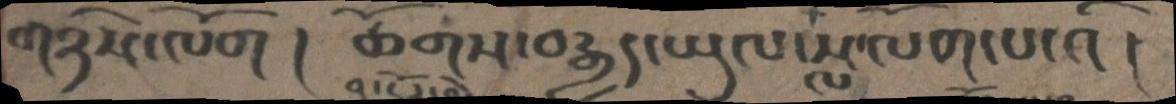གཉིས་ལོག ། ཚོགས་བརྒྱད་ཡུལ་སླ་ལོག་པ་འི།
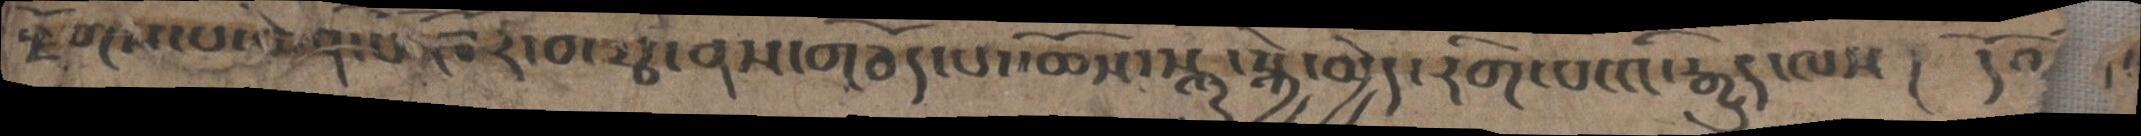རྫོགས་པ་ཆེན་པོ་ཁོར་བ་རྩ་ནས་གཅོད་པ་ཆོས་སྐུ་སྐྱེ་མྱེད་རིག་པ་འི་རྒྱུད་ལས ། དོའ
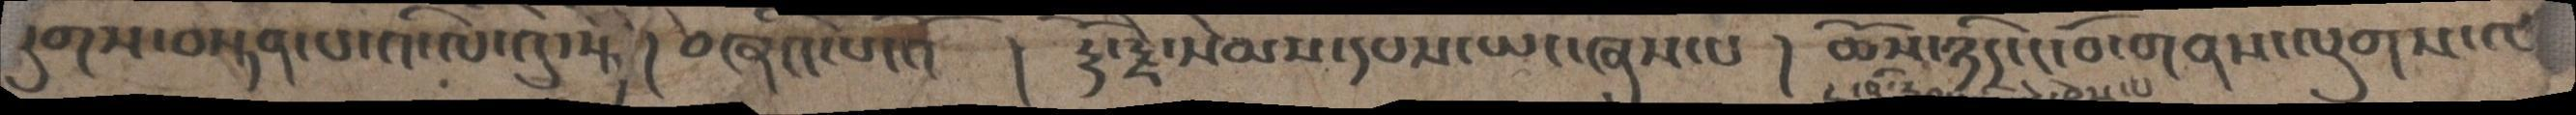ལུགས་བསྟན་པ་འི་ལེ་འུ་སྟེ། བཞིའ་པ་འོ  ། རྡོ་རྗེ་སེམས་དཔས་ཡང་ཞུས་པ ། ཆོས་ཉིད་ངོ་བོ་གནས་ལུགས་ལ
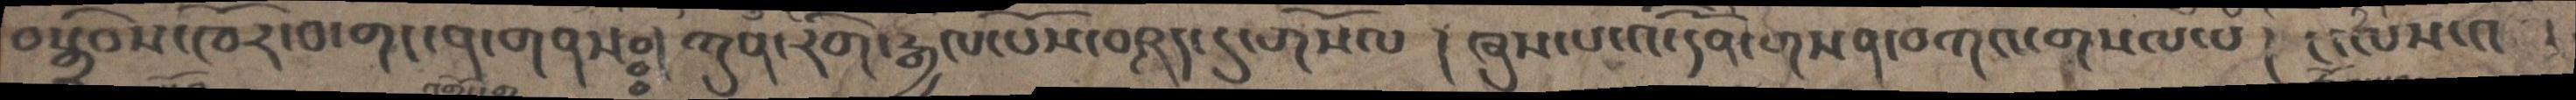བསྒྲིབས་ཁོར་བ་གང་ན་གནསཿ  །ཀུན་རིག་རྒྱལ་པོས་བཤད་དུ་གསོལ །ཞུས་པ་འི་དོན་གསན་བཀའ་གསལ་པ །ང་ལས་འ
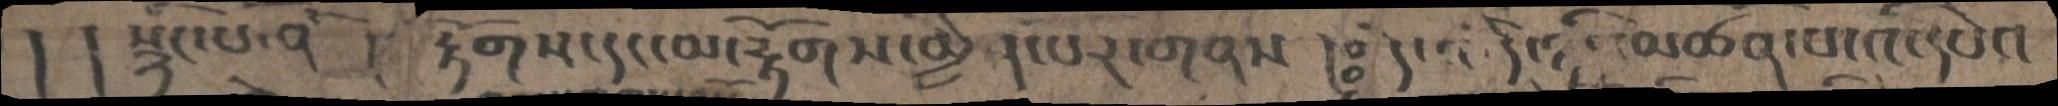། །སྙིང་པོ་ནི །རྟོགས་དང་མ་རྟོགས་མྱིན་པར་གནས །ཿ །དེ་འི་དེ་ཉིད་མཚན་པ་འི་དཔེའ་
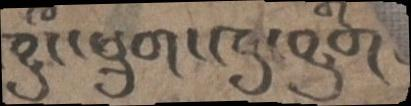ཁྱུང་ཕྲུག་ཁུ་བྱུག
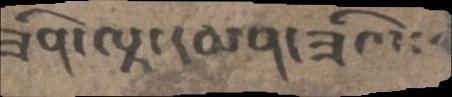ཟིན་ལྟ་དམན་ཟིལ་
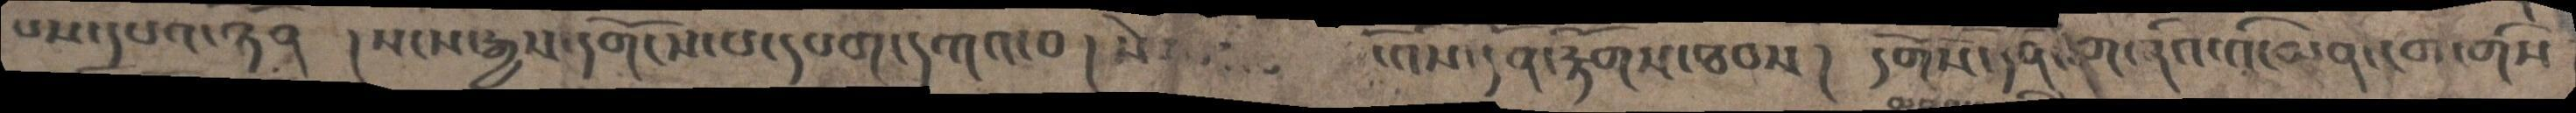པས་དཔའ་ཉན། སངས་རྒྱས་དགོངས་པ་དཔག་དཀའ་བ ། སེ   འོས་དོན་རྟོགས་ཐབས ། དགོས་དོན་གཞིའ་འི་མན་ངག་གིས
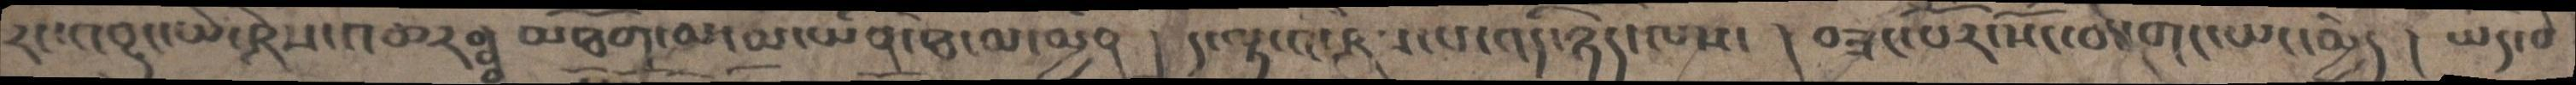རང་འབྱུང་ཡེ་ཤེས་འཆརཿ  །  མཐོག་མ་མ་ཡིན་ཐ་མ་མྱིན ། ད་ལྟ་འི་ཤེས་པ་འདི་ཉིད་ལས་ ། བཟང་པོར་སོང་བས་གང་ཡང་མྱེད ། ཡད་བ
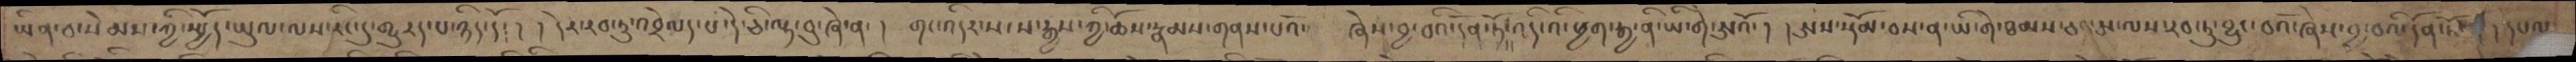ཡིན་བ་སེམས་ཀྱི་སྤྱོད་ཡུལ་ལས་རིང་དུ་གྱུརད་པ་ཉིད་དོ། །དེར་རབ་ཏུ་འབྲེལད་པ་དེ་ཅི་ལྟ་བུ་ཞེ་ན་། གང་འདིར་སངས་རྒྱས་ཀྱི་རྣམས་གནས་པའོ་ ཞེས་བྱ་བའི་དོན་ཏོ་འདི་འི་ཕྱག་རྒྱ་ནི་ཡི་གེ་ཨའོ་། ཨས་སྡོམ་བས་ན་ཡི་གེ་ཐམས་ཅད་ཨ་ལས་རབ་ཏུ་བྱུང་བའོ་ཞེས་བྱ་བའི་དོན་ཏོ་། དཔལ
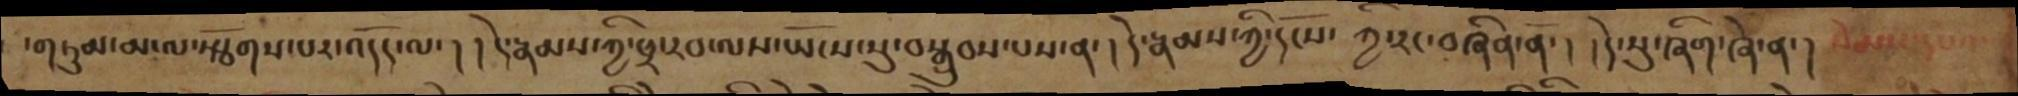་གཏུམ་མ་ལ་སྩོགས་པར་འདོད་ལ་། །དེ་རྣམས་ཀྱི་ཕྲ་རབ་ལས་ཡོངས་སུ་བསྒྲུབས་པས་ན་ །དེ་རྣམས་ཀྱི་དངོས་ཀྱི་རང་བཞིན་ནོ་ ། །དེ་སུ་ཞིག་ཞེ་ན་ །སེམས་དཔའ་
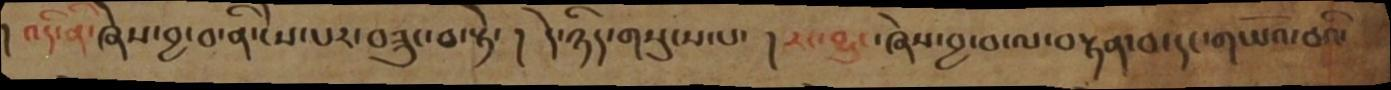། འདི་ནི་ཞེས་བྱ་བ་ནི་ངེས་པར་བཟུང་བ་སྟེ་ ། དེ་ཉིད་གསུངས་པ་ །རང་བྱུང་ཞེས་བྱ་བ་ལ་བརྟན་པ་དང་གཡོའ་བའི་
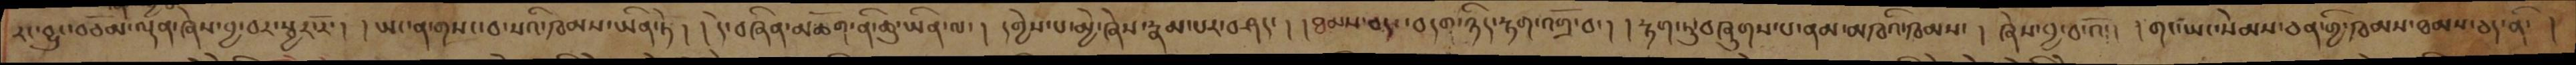རང་བྱུང་བཅོམ་ལྡན་ཞེས་བར་སྦྱར་རོ་། ཡང་ན་གསང་བ་སའི་ཁམས་ཡིན་ཏེ ། དེ་བཞིན་མཆོག་ནི་ཆུ་ཡིན་ལ་ །དགྱེས་པ་མྱེ་ཞེས་རྣམ་པར་བཤད་ ། ཐམས་ཅད་བདག་ཉིད་རྟག་འགྲོ་བ་། །རྟག་ཏུ་བཞུགས་པ་ནམ་མཁའི་ཁམས་ །ཞེས་བྱ་བ་འོ་། །གང་ཡང་སེམས་ཅན་གྱི་ཁམས་ཐམས་ཅད་ནི་ །
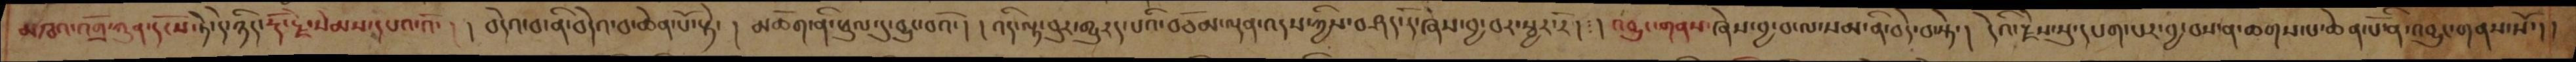མཁའ་འགྲོ་ཀུན་དངོས་ཏེ་དེ་ཉིད་རྡོ་རྗེ་སེམས་དཔའ་འོ་། །བདེའ་བ་ནི་བདེའ་བ་ཆེན་པོ་སྟེ་ །མཆོག་ནི་ཕུལ་དུ་བྱུང་བའོ་ ། །འདི་ལྟ་བུར་གྱུརད་པའི་བཅོམ་ལྡན་འདས་ཀྱིས་བཤད་དོ་ཞེས་བྱ་བར་སྦྱར་རོ།༴།འབྱུང་གནས་ཞེས་བྱ་བ་ལ་སམ་ནི་བདེ་བ་སྟེ་། དེའི་རྗེས་སུ་དཔག་པར་བྱ་བས་ན་ཆགས་པ་ཆེན་པོ་ནི་འབྱུང་གནས་སོ་།།
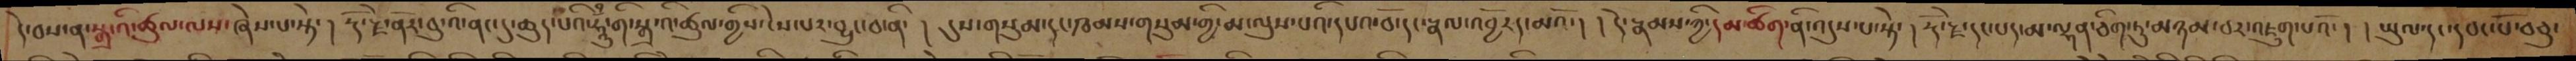དེ་བས་སྒྲ་འི་ཚུལ་ལས་ཞེས་པ་སྟེ་། རྡོ་རྗེ་ནོར་བུ་འི་ནང་དུ་ཆུད་པའི་ཧཱུྃ་གི་སྒྲ་འི་ཚུལ་གྱིས་ངེས་པར་བྱུང་བ་ནི་། དུས་གསུམ་དང་ཁམས་གསུམ་གྱི་མ་ལུས་པའི་དཔའ་བོ་དང་རྣལ་འབྱོརད་མའོ་། །དེ་རྣམས་ཀྱི་དམ་ཚིག་ནི་འདུས་པ་སྟེ་།  རྡོ་རྗེ་དང་པད་མ་ལྷན་ཅིག་ཏུ་མཉམ་པར་འཇུག་པའོ་། །ཡུལ་དང་དབང་པོ་བཅུ་
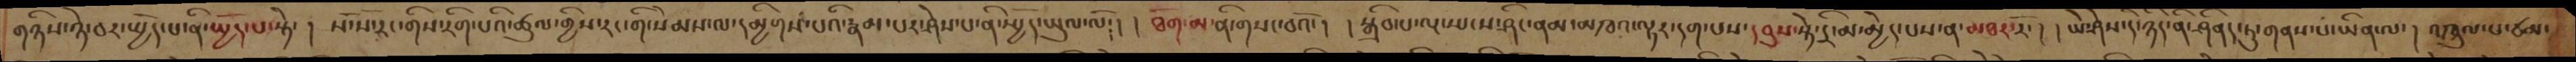གཉིས་ཉེ་བར་སྤྱོད་པ་ནི་སྤྱོད་པ་སྟེ་།  སོ་སོ་རང་གིས་རིག་པའི་ཚུལ་གྱིས་རང་གི་སེམས་ལ་དམྱིགས་པའི་རྣམ་པར་ཤེས་པ་ནི་སྤྱོད་ཡུལ་ལོ། །ཐོག་མ་ནི་གསང་བའོ་། །སྒྲིབ་པ་ལྔ་ཡངས་ཤིང་ནམ་མཁའ་ལྟར་དག་པས་དབུས་སྟེ་དྲི་མ་མྱེད་པས་ན་མཐར་རོ་། །ཡེ་ཤེས་དེ་ཉིད་ནི་ཤིནད་ཏུ་གནས་པ་ཡིན་ལ་། འཁྲུལ་པ་ཙམ་
